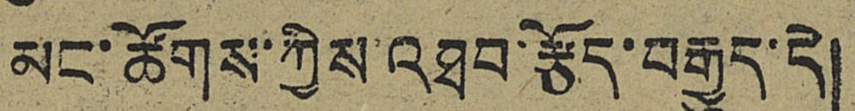མང་ཚོགས་ཀྱིས་འཐབ་རྩོད་བརྒྱུད་དེ།
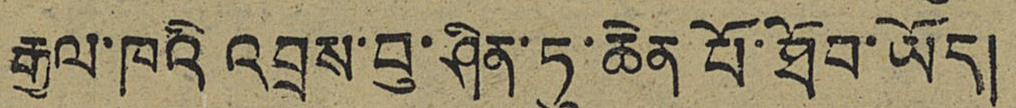རྒྱལ་ཁའི འབྲས་བུ་ཤིན་ཏུ་ཆེན པོ་ཐོབ་ཡོད།
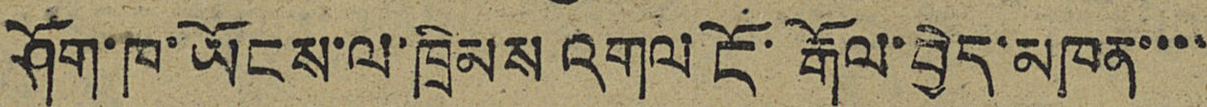ཤོག་ཁ་ཡོངས་ལ་ཁྲིམས འགལ ངོ་རྒོལ་བྱེད་མཁན་་་་
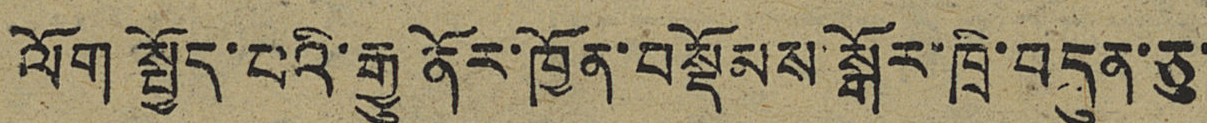ལོག སྤྱོད་པའི་རྒྱུ ནོར་ཁྱོན་བསྡོམས་སྒོར་ཁྲི་བདུན་ཅུ་
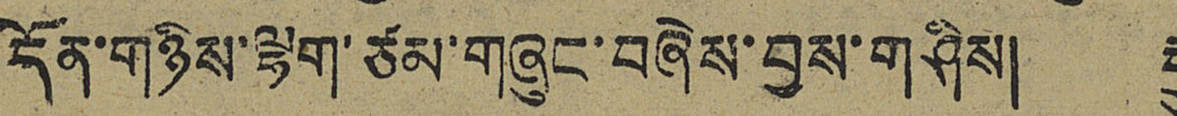དོན་གཉིས་ལྷག་ཙམ་གཞུང་བཞེས་བྱས་གཤིས། རྒྱུ
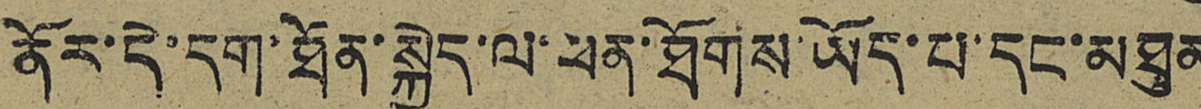ནོར་དེ་དག་ཐོན་སྐྱེད་ལ་ཕན་ཐོགས་ཡོད་པ་དང་མཐུན
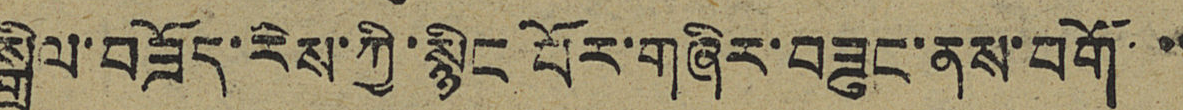སྒྲིལ་བཟོད་རིས་ཀྱི་སྙིང པོར་གཞིར་བཟུང་ནས་བགོ་་་
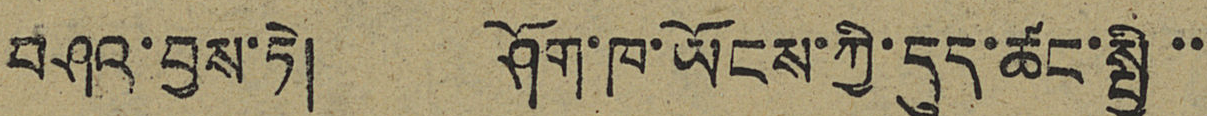བཤའ་བྱས་ཏེ། ཤོག་ཁ་ཡོངས་ཀྱི་དུད་ཚང་སྤྱི་་
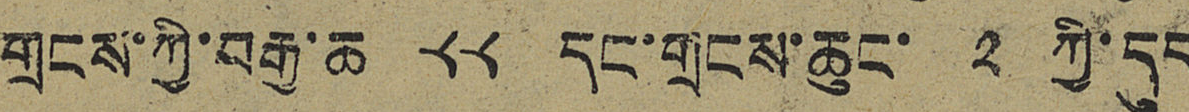གྲངས་ཀྱི་བརྒྱ་ཆ ༨༨ དང་གྲངས་ཆུང་ ༢ ཀྱི་དུད
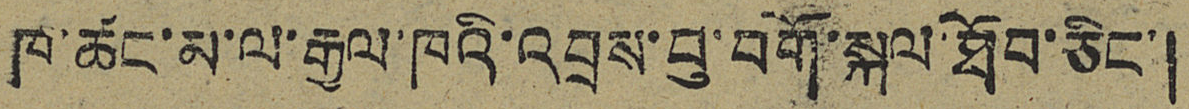ཁ་ཚང་མ་ལ་རྒྱལ་ཁའི་འབྲས་བུ་བགོ་སྐལ་ཐོབ་ཅིང་།
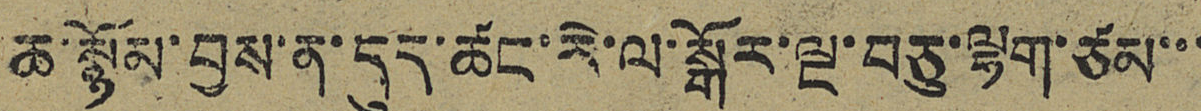ཆ་སྙོམ་བྱས་ན་དུད་ཚང་རེ་ལ་སྒོར་ལྔ་བཅུ་ལྷག་ཙམ་་་
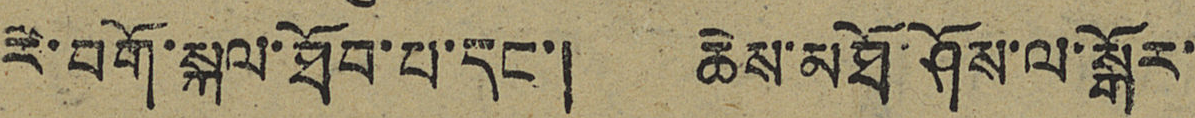རེ་བགོ་སྐལ་ཐོབ་པ་དང་། ཆེས་མཐོ་ཤོས་ལ་སྒོར་
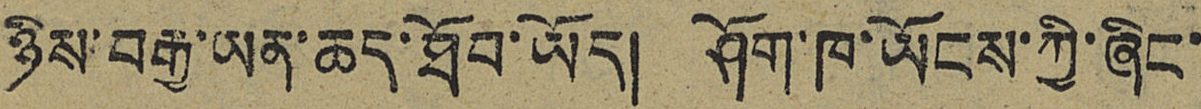ཉིས་བརྒྱ་ཡན་ཆད་ཐོབ་ཡོད། ཤོག་ཁ་ཡོངས་ཀྱི་ཞོང་
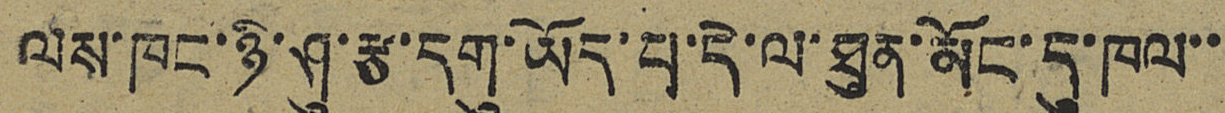ལས་ཁང་ཉི་ཤུ་རྩ་དགུ་ཡོད་པ་དེ་ལ་ཐུན་མོང་དུ་ཁལ་་
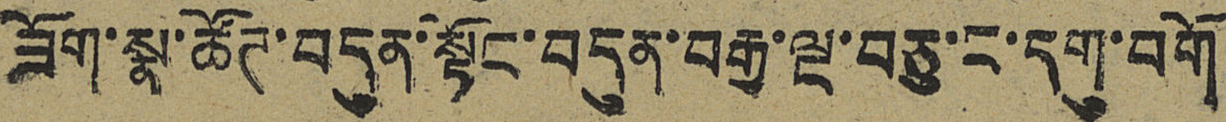ཟོག་སྣ་ཚོཊ་བདུན་སྟོང་བདུན་བརྒྱ་ལྔ་བཅུ་ང་དགུ་བགོ
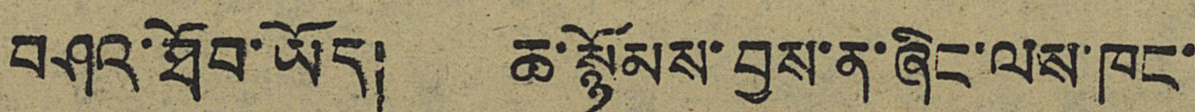བཤའ་ཐོབ་ཡོད། ཆ་སྙོམས་བྱས་ན་ཞོང་ལས་ཁང་
